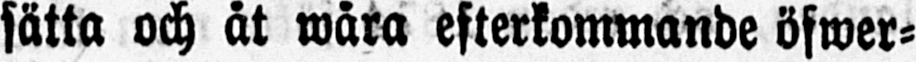sätta och åt wåra efterkommande öfwer-
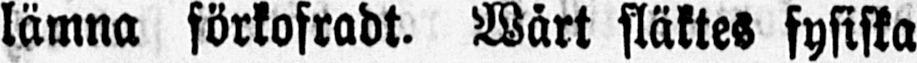lämna förkofradt. Wårt släktes fysiska
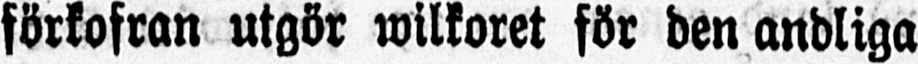förkofran utgör wilkoret för den andliga
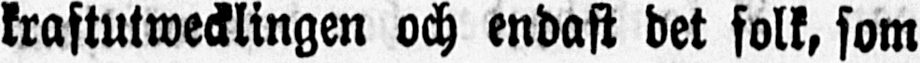kraftutwecklingen och endast det folk, som
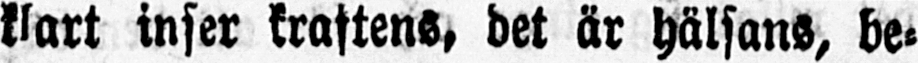klart inser kraftens, det är hälsans, be-
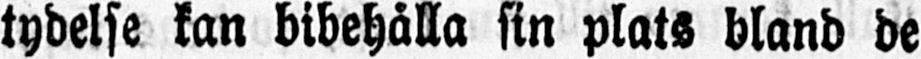tydelse kan bibehålla sin plats bland de
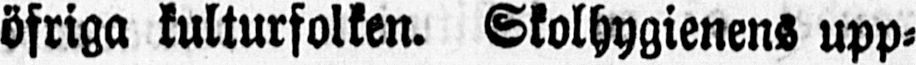öfriga kulturfolken. Skolhygienens upp-
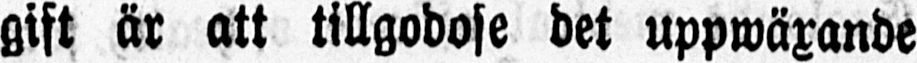gift är att tillgodose det uppwäxande
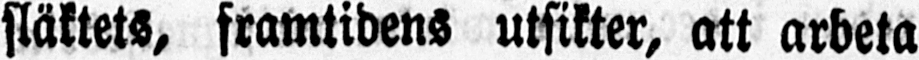släktets, framtidens utsikter, att arbeta
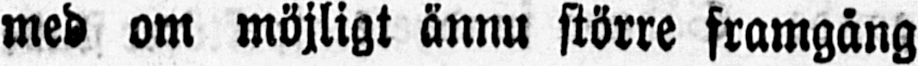med om möjligt ännu större framgång
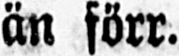än förr.
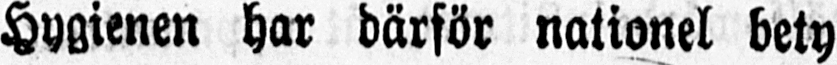Hygienen har därför nationel bety
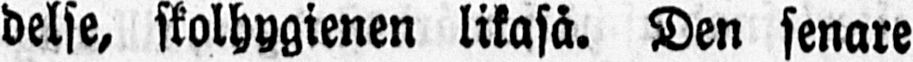delse, skolhygienen likaså. Den senare
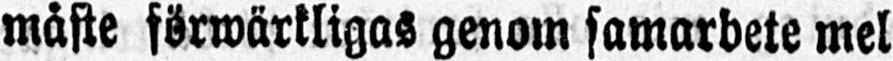måste förwärkligas genom samarbete mel-
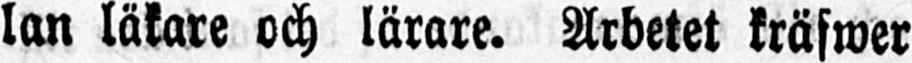lan läkare och lärare. Arbetet kräfwer
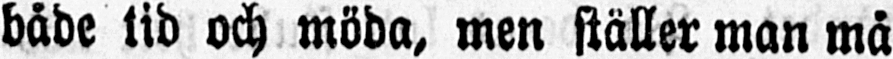både tid och möda, men ställer man må
